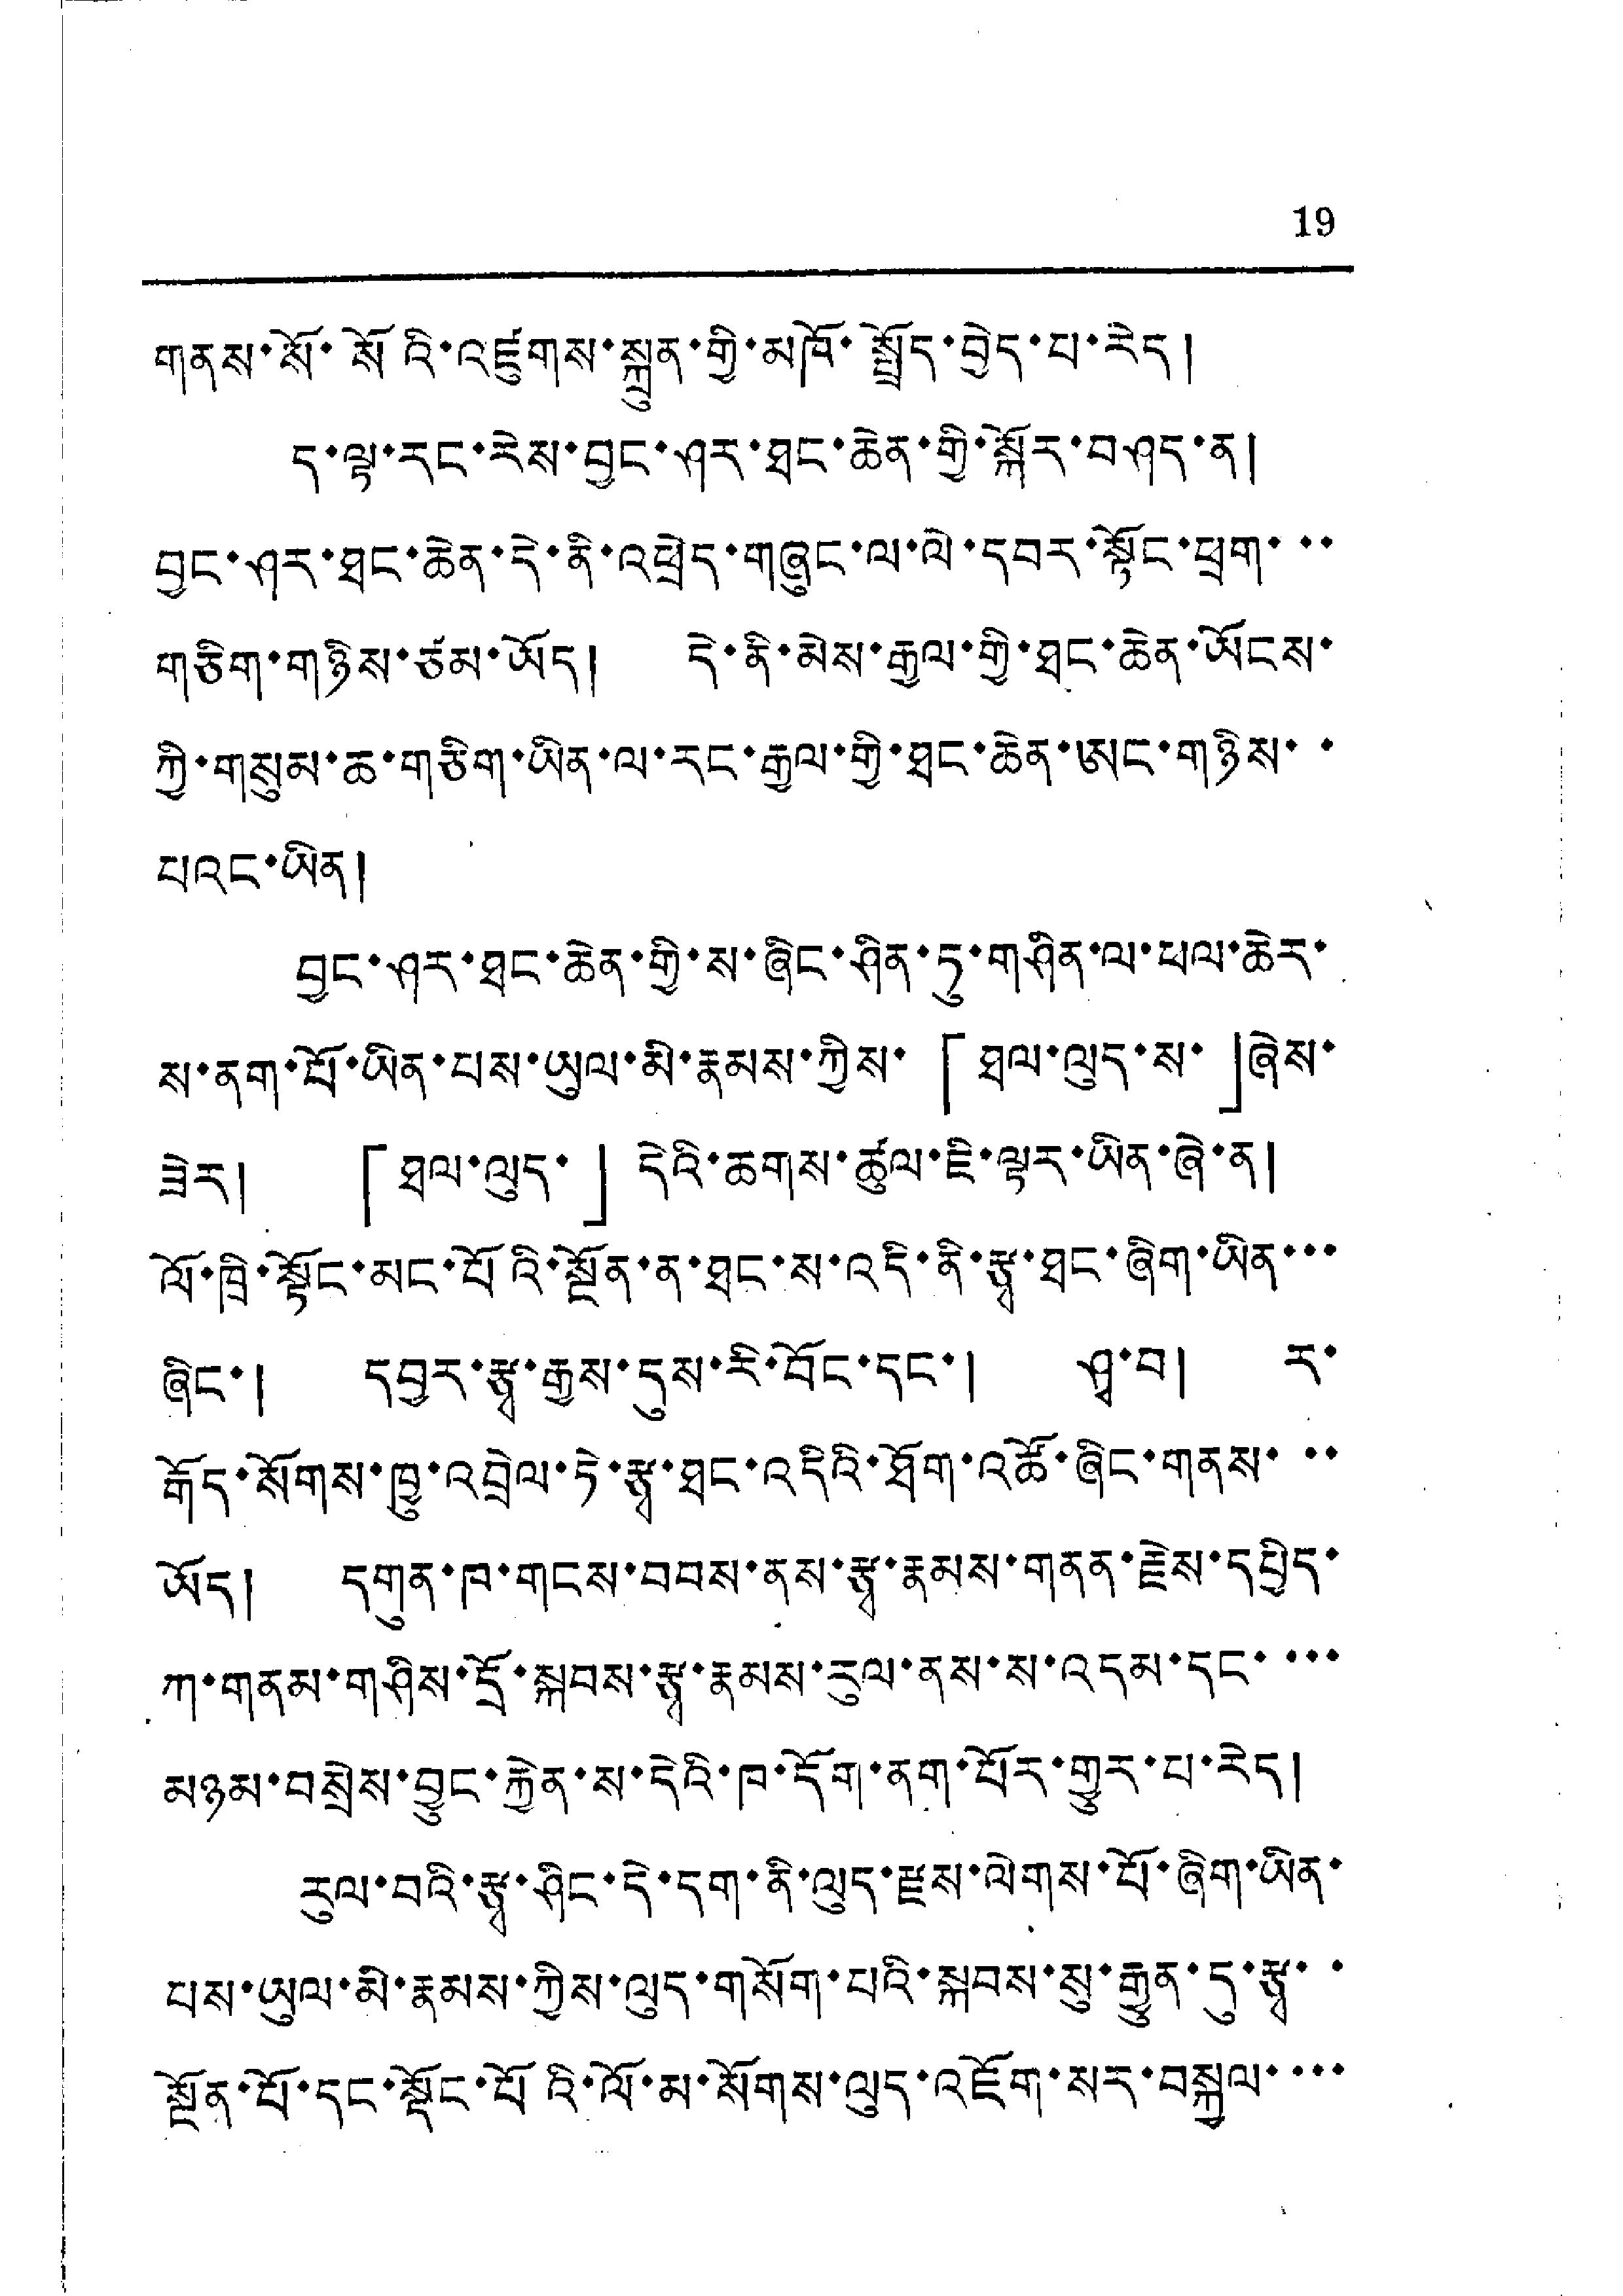19
གནས་སོ་སོའི་འཛུགས་སྐྲུན་གྱི་མཁོ་སྤྲོད་བྱེད་པ་རེད།
ད་ལྟ་རང་རེས་བྱང་ཤར་ཐང་ཆེན་གྱི་སྐོར་བཤད་ན།
བྱང་ཤར་ཐང་ཆེན་དེ་ནི་འཕྲེད་གཞུང་ལ་ལེ་དབར་སྟོང་ཕྲག་་་
གཅིག་གཉིས་ཙམ་ཡོད། དེ་ནི་མེས་རྒྱལ་གྱི་ཐང་ཆེན་ཡོངས་
ཀྱི་གསུམ་ཆ་གཅིག་ཡིན་ལ་རང་རྒྱལ་གྱི་ཐང་ཆེན་ཨང་གཉིས་་
པའང་ཡིན།
བྱང་ཤར་ཐང་ཆེན་གྱི་ས་ཞིང་ཤིན་ཏུ་གཤིན་ལ་ཕལ་ཆེར་
ས་ནག་པོ་ཡིན་པས་ཡུལ་མི་རྣམས་ཀྱིས་「ཐལ་ལུད་ས་」ཞེས་
ཟེར། 「ཐལ་ལུད་」དེའི་ཆགས་ཚུལ་ཇི་ལྟར་ཡིན་ཞེ་ན།
ལོ་ཁྲི་སྟོང་མང་པོའི་སྔོན་ན་ཐང་ས་འདི་ནི་རྩྭ་ཐང་ཞིག་ཡིན་་་
ཞིང་། དབྱར་རྩྭ་རྒྱས་དུས་རི་བོང་དང་། ཤྭ་བ། ར་
རྒོད་སོགས་ཁྱུ་འབྲེལ་ཏེ་རྩྭ་ཐང་འདིའི་ཐོག་འཚོ་ཞིང་གནས་་་
ཡོད། དགུན་ཁ་གངས་བབས་ནས་རྩྭ་རྣམས་གནན་རྗེས་དཔྱིད་
ཀ་གནམ་གཤིས་དྲོ་སྐབས་རྩྭ་རྣམས་རུལ་ནས་ས་འདམ་དང་་་་
མཉམ་བསྲེས་བྱུང་རྐྱེན་ས་དེའི་ཁ་དོག་ནག་པོར་གྱུར་པ་རེད།
རུལ་བའི་རྩྭ་ཤིང་དེ་དག་ནི་ལུད་རྫས་ལེགས་པོ་ཞིག་ཡིན་
པས་ཡུལ་མི་རྣམས་ཀྱིས་ལུད་གསོག་པའི་སྐབས་སུ་རྒྱུན་དུ་རྩྭ་་
སྔོན་པོ་དང་སྡོང་པོའི་ལོ་མ་སོགས་ལུད་འཇོག་སར་བསྐྱལ་་་་
